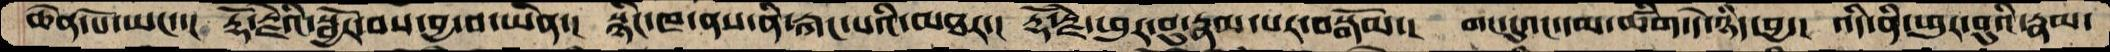ཆེན་པོ་ཡང་་།  རྡོ་རྗེའི་སྦྱོར་བས་བྱ་བ་ཡིན་།  སྙིང་ཁ་ནས་ནི་རྐང་པའི་མཐར་།  རྡོ་རྗེ་ཕུར་བུ་རྣམ་པར་བསྒོམ་།  གང་དུའང་དམ་ཚིག་དེ་ཉིད་བྱ་།  འདི་ནི་ཕུར་བུའི་རྣམ་
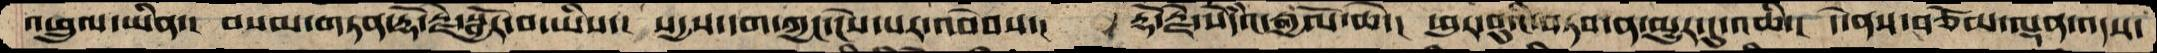འཕྲུལ་ཡིན་།  བསམ་གཏན་རྡོ་རྗེ་སྦྱོར་བ་ཡིས་།  སདྱས་དག་ཀྱང་ངེས་པར་འབེབས་།  རྡོ་རྗེ་སེདའཾ་རྒྱལོ་ཆེ་།  ཕུར་བུའི་བཏབ་ན་མྱུར་དུ་འཆི་།  དེ་ནས་བཅོམ་ལྡན་འདས་
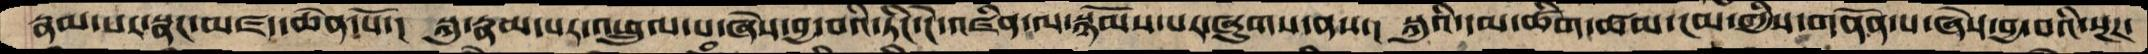རྣམ་པར་སྣང་མཛད་ཆེན་པོ་།  སྐུ་རྣམ་པར་འཕྲུལ་པ་ཞེས་བྱ་བའི་ཏིང་ངེ་འཛིན་ལ་སྙོམས་པར་ཞུགས་ནས་།  སྐུའི་དམ་ཚིག་ཚམ་ངམ་གྱིས་གནོན་པ་ཞེས་བྱ་བའི་སྔཌ་
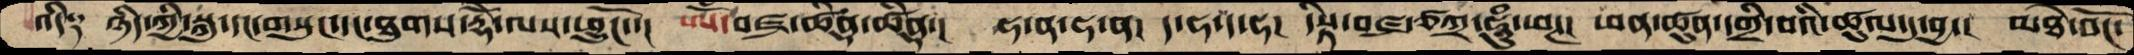འདི༑  ཉིད་ཀྱི་སྐུ་དང་གསུང་དང་ཐུགས་རྡོེ་ལས་ཕྱུངོ་་།   ཨོཾ་བཛྲ་ཚིནྡྷ་ཚིནྡྷ་།  ཧ་ན་ཧ་ན།  ད་ཧ་ད་ཧ།  དིསྟ་བཛྲ་ཙཀྲ་ཧཱུཾ་ཕཊ།  ཕན་ཚུན་དགྲི་བའི་ཚུལ་དུ་བྱ་།  མཐེ་བོང་
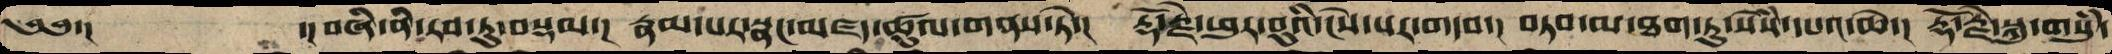༄༅་།       ་། བཞི་ནི་རབ་ཏུ་བསྡམ་།  རྣམ་པར་སྣང་མཛད་ཚུལ་གནས་ཏེ་།   རྡོ་རྗེ་ཕུར་བུའི་ངེས་པར་གདབ་།  བཏབ་མ་ཐག་ཏུ་སེཾས་དཔའ་ཆེ་།  རྡོ་རྗེ་སྐུ་གསུཾ་
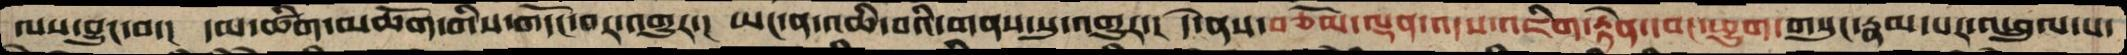ལས་བྱུང་བ་།  དམ་ཚིག་མཆོག་གིས་གདོང་བར་འགྱུར་།  ཡང་ན་འཆི་བའི་གནས་སུ་འགྱུར་།  དེ་ནས་བཅོམ་ལྡན་འདས་འཇིག་རྟེན་དབང་ཕྱུག་གསུང་རྣམ་པར་འཕྲུལ་པ་
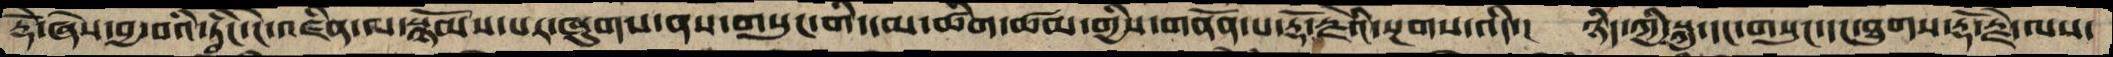རྡོེ་ཞེས་བྱ་བའི་ཏིང་ངེ་འཛིན་ལ་སྙོམས་པར་ཞུགས་ནས་གསུང་གི་དམ་ཚིག་ཚམ་གྱིས་གནོན་པ་རྡོ་རྗེའི་སྔགས་འདི་།  ཉིད་ཀྱི་སྐུ་དང་གསུང་་དང་ཐུགས་རྡོ་རྗེ་ལས་
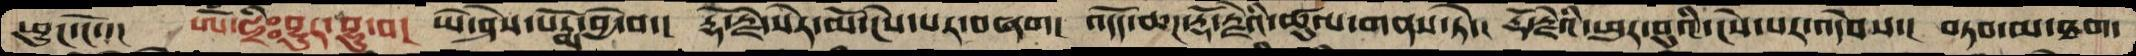ཕྱུང་ངོ་་།  ཨོཾ་ཧྲིཿབྷུར་བྷུ་བ།  ཡེ་ཤེས་པདྨོ་བྱེ་བ་།  རྡོ་རྗེ་སེར་མོ་ངེས་པར་བཞག།  འདོད་ཆཌ་རྡོ་རྗེའི་ཚུལ་གནས་ཏེ་།  རྡོ་རྗེའི་ཕུར་བུའི་ངེས་པར་འདེབས་།  བཏབ་མ་ཐག་
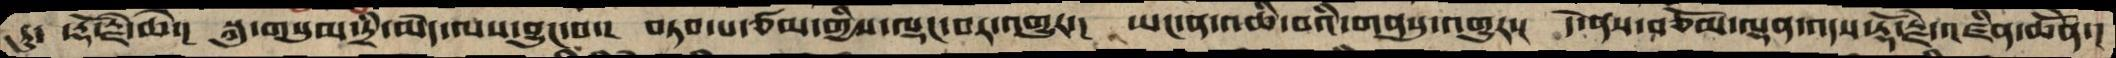ཏུ་  ་རྡོ་རྗེ་ཆེ་།  སྐུ་གསུམ་དྲི་མེད་ལས་བྱུང་བ་།  བཏབ་པ་ཙམ་གྱིས་ལྡང་བར་འགྱུར་།  ཡང་ན་འཆི་བའི་གནསུ་འགྱུར་།  དེ་ནས་བཅོམ་ལྡན་འདས་རྡོ་རྗེ་འཛིན་ཆེནོ་།
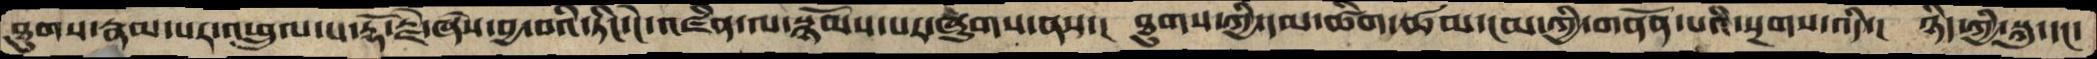ཐུགས་རྣམ་པར་འཕྲུལ་པ་རྡོ་རྗེ་ཞེས་བྱ་བའི་ཏིང་ངེ་འཛིན་ལ་སྙོམས་པར་ཞུགས་ནས་།  ཐུགས་ཀྱི་དམ་ཚིག་ཚམ་ངམ་ཀྱི་གནོན་པའི་སྔགས་འདི་།  ཉིད་ཀྱི་སྐུ་དང་
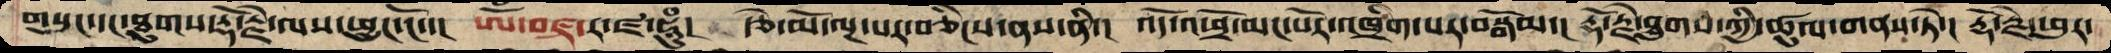གསུང་དང་ཐུགས་རྡོ་རྗེ་ལས་ཕྱུང་ངོ་་།  ཨོཾ་བཛྲ་ར་ཛ་ཧཱུཾ།  རྩེ་མོ་ལྔ་པར་བཅིངས་ནས་ནི་།  འོད་འཕྲོ་མང་པོར་འཁྲིག་པར་བསྒོམ་།  རྡོ་རྗེ་ཐུགས་ཀྱི་ཚུལ་གནས་ཏེ་།  རྡོ་རྗེ་ཕུར་
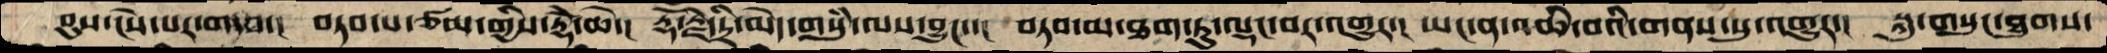བུས་ངེས་པར་གདབ་། བཏབ་པ་ཙམ་གྱིས་རྡོེ་ཆེ་།  རྡོ་རྗེ་དྲི་མེད་གསུཾ་ལས་བྱུང་་།  བཏབ་མ་ཐག་ཏུ་ལྡང་བར་འགྱུར་།  ཡང་ན་འཆི་བའི་གནས་སུ་གྱུར་།  སྐུ་གསུང་ཐུགས་
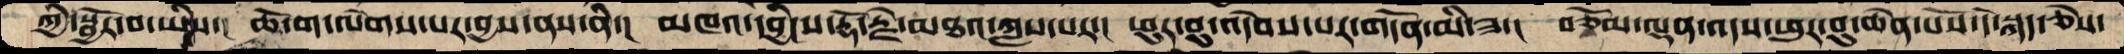ཀྱི་སྦྱོར་བ་ཡིས་།  ཆོ་ག་ལེགས་པར་བྱས་ནས་ནི་།  མཁའ་དབྱིངས་རྡོ་རྗེ་མཐའ་ཀླས་པར་།  ཕུར་བུ་འདེབས་པར་གདོན་མི་ཟ་།  བཅོམ་ལྡན་འདས་ཕུར་བུ་ཆེན་པོས་དེ་སྐད་ཅེས་
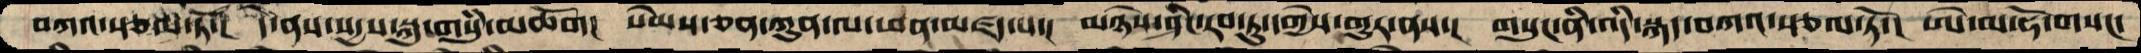བཀའ་སྩལ་ཏོ་།  དེ་ནས་སདྱས་སྐུ་གསུཾ་མཆོག།  སེམས་ཅན་ཀུན་ལ་ཕན་མཛད་པ་།  མཉེས་ཤིང་རབ་ཏུ་དགྱེས་གྱུར་ནས་།  གསུང་ནི་འདི་སྐད་བཀའ་སྩལ་ཏོ་།  ཨེ་མ་ཧོ་གསང་
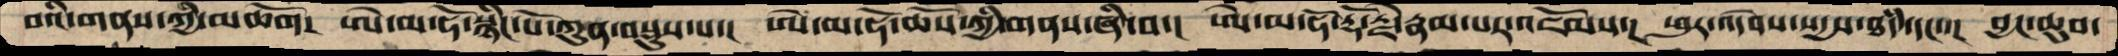བའི་གནས་ཀྱི་མཆོག།  ཨེ་མ་ཧོ་སྙིང་པོ་ཀུན་བསྡུས་པ་།  ཨེ་མ་ཧོ་ཆོས་ཀྱི་གནས་ཞི་བ་།  ཨེ་མ་ཧོ་རྡོ་རྗེ་རྣམ་པར་འཇོམས་།  ཕུར་འདེབས་སདྱས་ཐཾད་དང་་།  བྱང་ཆུབ་
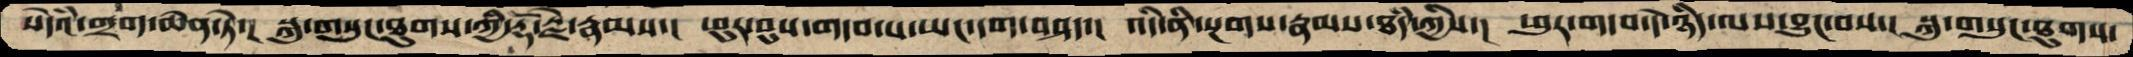སེདཾའ་གྲག་ཆེན་ཏེ་།  སྐུ་གསུང་ཐུགས་ཀྱི་རྡོ་རྗེ་རྣམས་།  ཕུར་བུས་གདབ་པ་ཡང་དག་བཤད་།  འདི་ནི་སྔགས་རྣམས་ཐཾད་ཀྱིས་།  ཕུར་གདབ་དེ་ཉིད་ལས་བྱུང་བས་།  སྐུ་གསུང་ཐུགས་
